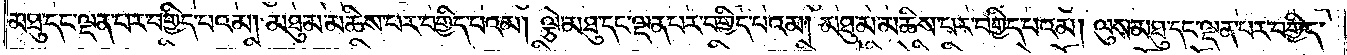མཐུ་དང་ལྡན་པར་བགྱིད་པའམ། མཐུ་མ་མཆིས་པར་བགྱིད་པའམ། ལྕེ་མཐུ་དང་ལྡན་པར་བགྱིད་པའམ། མཐུ་མ་མཆིས་པར་བགྱིད་པའམ། ལུས་མཐུ་དང་ལྡན་པར་བགྱིད་
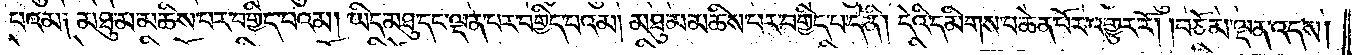པའམ༑ མཐུ་མ་མཆིས་པར་བགྱིད་པའམ། ཡིད་མཐུ་དང་ལྡན་པར་བགྱིད་པའམ། མཐུ་མ་མཆིས་པར་བགྱིད་པ་དེ་ནི། དེའི་དམིགས་པ་ཆེན་པོར་འགྱུར་རོ། །བཅོམ་ལྡན་འདས།
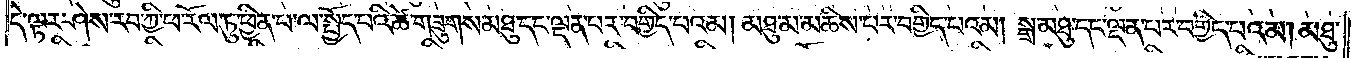དེ་ལྟར་ཤེས་རབ་ཀྱི་ཕ་རོལ་ཏུ་ཕྱིན་པ་ལ་སྤྱོད་པའི་ཚེ་གཟུགས་མཐུ་དང་ལྡན་པར་བགྱིད་པའམ། མཐུ་མ་མཆིས་པར་བགྱིད་པའམ། སྒྲ་མཐུ་དང་ལྡན་པར་བགྱིད་པའམ། མཐུ་
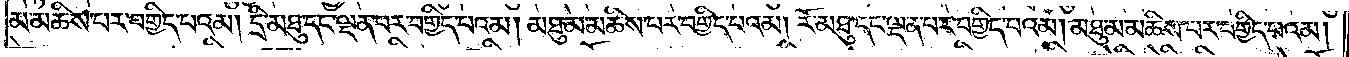མ་མཆིས་པར་བགྱིད་པའམ། དྲི་མཐུ་དང་ལྡན་པར་བགྱིད་པའམ། མཐུ་མ་མཆིས་པར་བགྱིད་པའམ། རོ་མཐུ་དང་ལྡན་པར་བགྱིད་པའམ། མཐུ་མ་མཆིས་པར་བགྱིད་པའམ།
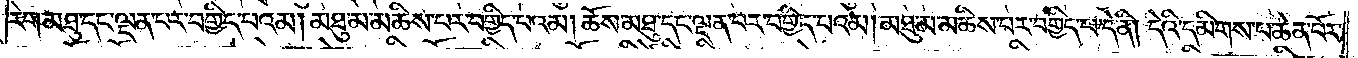རེག་མཐུ་དང་ལྡན་པར་བགྱིད་པའམ། མཐུ་མ་མཆིས་པར་བགྱིད་པའམ། ཆོས་མཐུ་དང་ལྡན་པར་བགྱིད་པའམ། མཐུ་མ་མཆིས་པར་བགྱིད་པ་དེ་ནི། དེའི་དམིགས་པ་ཆེན་པོར་
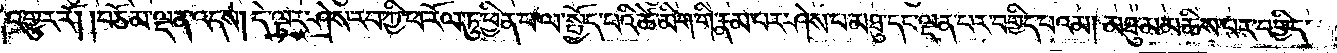འགྱུར་རོ། །བཅོམ་ལྡན་འདས། དེ་ལྟར་ཤེས་རབ་ཀྱི་ཕ་རོལ་ཏུ་ཕྱིན་པ་ལ་སྤྱོད་པའི་ཚེ་མིག་གི་རྣམ་པར་ཤེས་པ་མཐུ་དང་ལྡན་པར་བགྱིད་པའམ། མཐུ་མ་མཆིས་པར་བགྱིད་
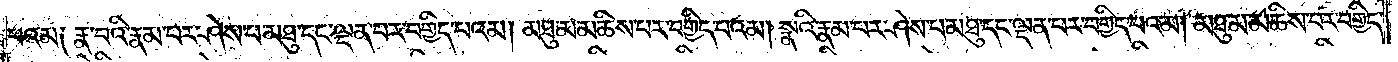པའམ༑ རྣ་བའི་རྣམ་པར་ཤེས་པ་མཐུ་དང་ལྡན་པར་བགྱིད་པའམ། མཐུ་མ་མཆིས་པར་བགྱིད་པའམ། སྣའི་རྣམ་པར་ཤེས་པ་མཐུ་དང་ལྡན་པར་བགྱིད་པའམ། མཐུ་མ་མཆིས་པར་བགྱིད་
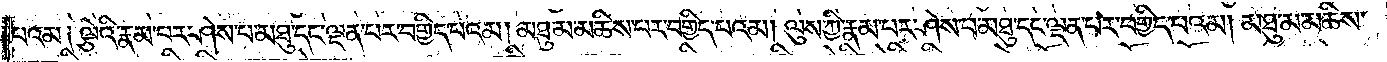པའམ༑ ལྕེའི་རྣམ་པར་ཤེས་པ་མཐུ་དང་ལྡན་པར་བགྱིད་པའམ། མཐུ་མ་མཆིས་པར་བགྱིད་པའམ། ལུས་ཀྱི་རྣམ་པར་ཤེས་པ་མཐུ་དང་ལྡན་པར་བགྱིད་པའམ། མཐུ་མ་མཆིས་
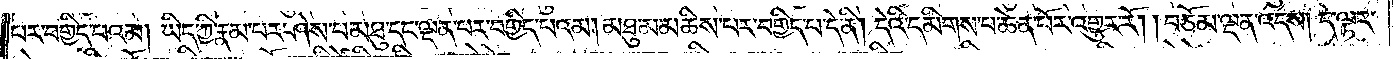པར་བགྱིད་པའམ། ཡིད་ཀྱི་རྣམ་པར་ཤེས་པ་མཐུ་དང་ལྡན་པར་བགྱིད་པའམ། མཐུ་མ་མཆིས་པར་བགྱིད་པ་དེ་ནི། དེའི་དམིགས་པ་ཆེན་པོར་འགྱུར་རོ། །བཅོམ་ལྡན་འདས། དེ་ལྟར་
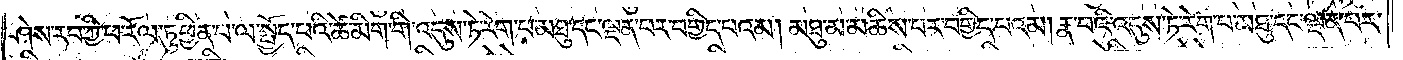ཤེས་རབ་ཀྱི་ཕ་རོལ་ཏུ་ཕྱིན་པ་ལ་སྤྱོད་པའི་ཚེ་མིག་གི་འདུས་ཏེ་རེག་པ་མཐུ་དང་ལྡན་པར་བགྱིད་པའམ། མཐུ་མ་མཆིས་པར་བགྱིད་པའམ། རྣ་བའི་འདུས་ཏེ་རེག་པ་མཐུ་དང་ལྡན་པར་
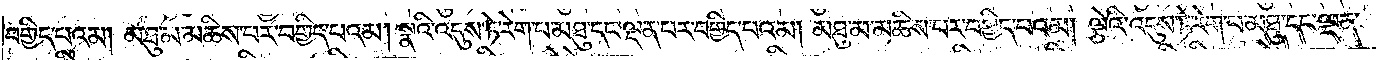བགྱིད་པའམ། མཐུ་མ་མཆིས་པར་བགྱིད་པའམ། སྣའི་འདུས་ཏེ་རེག་པ་མཐུ་དང་ལྡན་པར་བགྱིད་པའམ། མཐུ་མ་མཆིས་པར་བགྱིད་པའམ། ལྕེའི་འདུས་ཏེ་རེག་པ་མཐུ་དང་ལྡན་
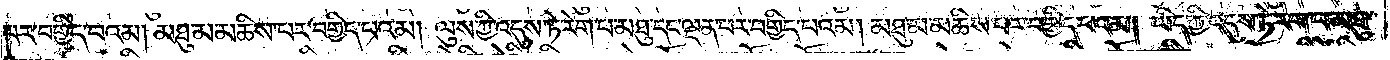པར་བགྱིད་པའམ། མཐུ་མ་མཆིས་པར་བགྱིད་པའམ། ལུས་ཀྱི་འདུས་ཏེ་རེག་པ་མཐུ་དང་ལྡན་པར་བགྱིད་པའམ། མཐུ་མ་མཆིས་པར་བགྱིད་པའམ། ཡིད་ཀྱི་འདུས་ཏེ་རེག་པ་མཐུ་
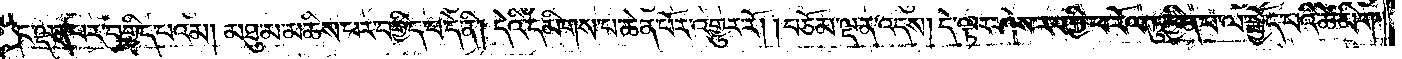དང་ལྡན་པར་བགྱིད་པའམ། མཐུ་མ་མཆིས་པར་བགྱིད་པ་དེ་ནི། དེའི་དམིགས་པ་ཆེན་པོར་འགྱུར་རོ། །བཅོམ་ལྡན་འདས། དེ་ལྟར་ཤེས་རབ་ཀྱི་ཕ་རོལ་ཏུ་ཕྱིན་པ་ལ་སྤྱོད་པའི་ཚེ་མིག་
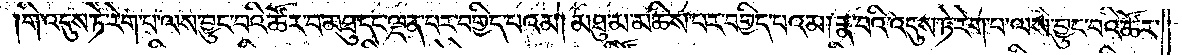གི་འདུས་ཏེ་རེག་པ་ལས་བྱུང་བའི་ཚོར་བ་མཐུ་དང་ལྡན་པར་བགྱིད་པའམ། མཐུ་མ་མཆིས་པར་བགྱིད་པའམ། རྣ་བའི་འདུས་ཏེ་རེག་པ་ལས་བྱུང་བའི་ཚོར་
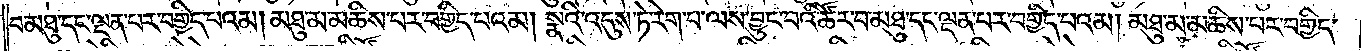བ་མཐུ་དང་ལྡན་པར་བགྱིད་པའམ། མཐུ་མ་མཆིས་པར་བགྱིད་པའམ། སྣའི་འདུས་ཏེ་རེག་པ་ལས་བྱུང་བའི་ཚོར་བ་མཐུ་དང་ལྡན་པར་བགྱིད་པའམ། མཐུ་མ་མཆིས་པར་བགྱིད་
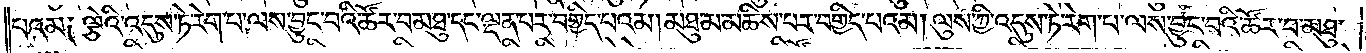པའམ༑ ལྕེའི་འདུས་ཏེ་རེག་པ་ལས་བྱུང་བའི་ཚོར་བ་མཐུ་དང་ལྡན་པར་བགྱིད་པའམ། མཐུ་མ་མཆིས་པར་བགྱིད་པའམ། ལུས་ཀྱི་འདུས་ཏེ་རེག་པ་ལས་བྱུང་བའི་ཚོར་བ་མཐུ་
